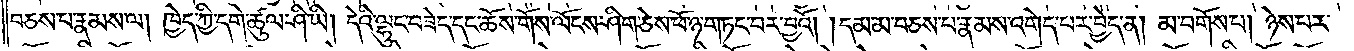བཅས་པ་རྣམས་ལ། ཁྱེད་ཀྱི་དགེ་ཚུལ་ཤི་ཡི། དེའི་ལྷུང་བཟེད་དང་ཆོས་གོས་ལོངས་ཤིག་ཅེས་ཕོ་ཉ་གཏང་བར་བྱའོ། །དམ་མ་བཅས་པ་རྣམས་འགེད་པར་བྱེད་ན། མ་བགོས་པ། ཉེས་པར་
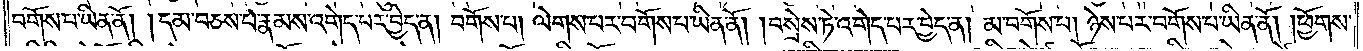བགོས་པ་ཡིན་ནོ། །དམ་བཅས་པ་རྣམས་འགེད་པར་བྱེད་ན། བགོས་པ། ལེགས་པར་བགོས་པ་ཡིན་ནོ། །བསྲེས་ཏེ་འགེད་པར་བྱེད་ན། མ་བགོས་པ། ཉེས་པར་བགོས་པ་ཡིན་ནོ། །ཕྱོགས་
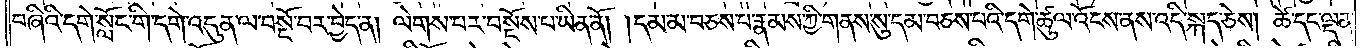བཞིའི་དགེ་སློང་གི་དགེ་འདུན་ལ་བསྔོ་བར་བྱེད་ན། ལེགས་པར་བསྔོས་པ་ཡིན་ནོ། །དམ་མ་བཅས་པ་རྣམས་ཀྱི་གནས་སུ་དམ་བཅས་པའི་དགེ་ཚུལ་འོངས་ནས་འདི་སྐད་ཅེས། ཚེ་དང་ལྡན་
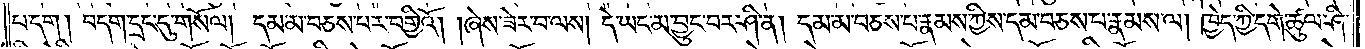པ་དག། བདག་དྲང་དུ་གསོལ། དམ་མ་བཅས་པར་བགྱིའོ། །ཞེས་ཟེར་བ་ལས། དེ་ཡང་མ་བྱུང་བར་ཤི་ན། དམ་མ་བཅས་པ་རྣམས་ཀྱིས་དམ་བཅས་པ་རྣམས་ལ། ཁྱེད་ཀྱི་དགེ་ཚུལ་ཤི་
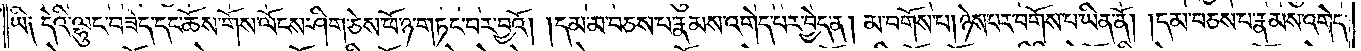ཡི༑ དེའི་ལྷུང་བཟེད་དང་ཆོས་གོས་ལོངས་ཤིག་ཅེས་ཕོ་ཉ་གཏང་བར་བྱའོ། །དམ་མ་བཅས་པ་རྣམས་འགེད་པར་བྱེད་ན། མ་བགོས་པ། ཉེས་པར་བགོས་པ་ཡིན་ནོ། །དམ་བཅས་པ་རྣམས་འགེད་
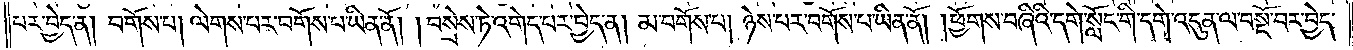པར་བྱེད་ན། བགོས་པ། ལེགས་པར་བགོས་པ་ཡིན་ནོ། །བསྲེས་ཏེ་འགེད་པར་བྱེད་ན། མ་བགོས་པ། ཉེས་པར་བགོས་པ་ཡིན་ནོ། །ཕྱོགས་བཞིའི་དགེ་སློང་གི་དགེ་འདུན་ལ་བསྔོ་བར་བྱེད་
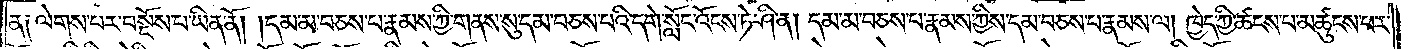ན༑ ལེགས་པར་བསྔོས་པ་ཡིན་ནོ། །དམ་མ་བཅས་པ་རྣམས་ཀྱི་གནས་སུ་དམ་བཅས་པའི་དགེ་སློང་འོངས་ཏེ་ཤི་ན། དམ་མ་བཅས་པ་རྣམས་ཀྱིས་དམ་བཅས་པ་རྣམས་ལ། ཁྱེད་ཀྱི་ཚངས་པ་མཚུངས་པར་
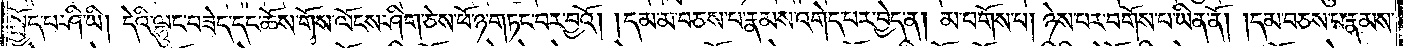སྤྱོད་པ་ཤི་ཡི། དེའི་ལྷུང་བཟེད་དང་ཆོས་གོས་ལོངས་ཤིག་ཅེས་ཕོ་ཉ་གཏང་བར་བྱའོ། །དམ་མ་བཅས་པ་རྣམས་འགེད་པར་བྱེད་ན། མ་བགོས་པ། ཉེས་པར་བགོས་པ་ཡིན་ནོ། །དམ་བཅས་པ་རྣམས་
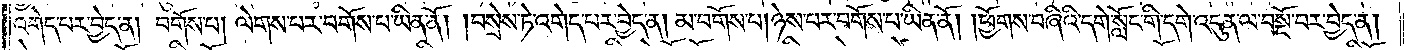འགེད་པར་བྱེད་ན། བགོས་པ། ལེགས་པར་བགོས་པ་ཡིན་ནོ། །བསྲེས་ཏེ་འགེད་པར་བྱེད་ན། མ་བགོས་པ། ཉེས་པར་བགོས་པ་ཡིན་ནོ། །ཕྱོགས་བཞིའི་དགེ་སློང་གི་དགེ་འདུན་ལ་བསྔོ་བར་བྱེད་ན།
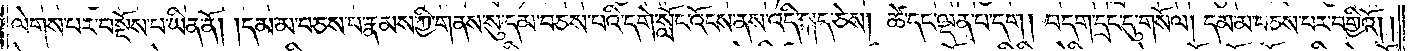ལེགས་པར་བསྔོས་པ་ཡིན་ནོ། །དམ་མ་བཅས་པ་རྣམས་ཀྱི་གནས་སུ་དམ་བཅས་པའི་དགེ་སློང་འོངས་ནས་འདི་སྐད་ཅེས། ཚེ་དང་ལྡན་པ་དག། བདག་དྲང་དུ་གསོལ། དམ་མ་བཅས་པར་བགྱིའོ༎
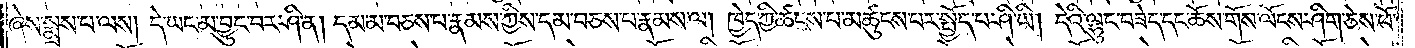ཞེས་སྨྲས་པ་ལས། དེ་ཡང་མ་བྱུང་བར་ཤི་ན། དམ་མ་བཅས་པ་རྣམས་ཀྱིས་དམ་བཅས་པ་རྣམས་ལ། ཁྱེད་ཀྱི་ཚངས་པ་མཚུངས་པར་སྤྱོད་པ་ཤི་ཡི། དེའི་ལྷུང་བཟེད་དང་ཆོས་གོས་ལོངས་ཤིག་ཅེས་ཕོ་
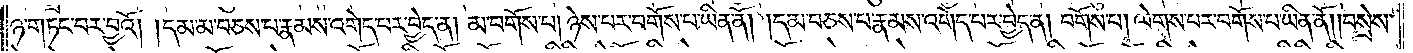ཉ་གཏང་བར་བྱའོ། །དམ་མ་བཅས་པ་རྣམས་འགེད་པར་བྱེད་ན། མ་བགོས་པ། ཉེས་པར་བགོས་པ་ཡིན་ནོ། །དམ་བཅས་པ་རྣམས་འགེད་པར་བྱེད་ན། བགོས་པ། ལེགས་པར་བགོས་པ་ཡིན་ནོ། །བསྲེས་
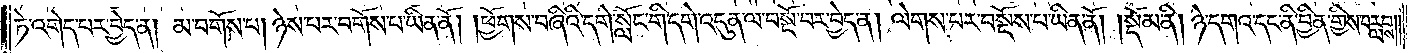ཏེ་འགེད་པར་བྱེད་ན། མ་བགོས་པ། ཉེས་པར་བགོས་པ་ཡིན་ནོ། །ཕྱོགས་བཞིའི་དགེ་སློང་གི་དགེ་འདུན་ལ་བསྔོ་བར་བྱེད་ན། ལེགས་པར་བསྔོས་པ་ཡིན་ནོ།    །སྡོམ་ནི། ཉེ་དགའ་དང་ནི་བྱིན་གྱིས་བརླབས༎
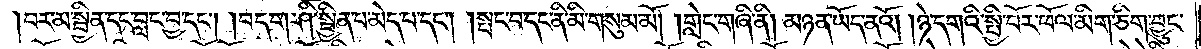བར་མ་སྦྱིན་དང་བླང་བྱ་དང༌། །བདག་ཤི་སྦྱིན་པ་མེད་པ་དང༌། །སྤང་བ་དང་ནི་མི་གསུམ་མོ། །གླེང་གཞི་ནི། མཉན་ཡོད་ནའོ། །ཉེ་དགའི་སྤྱི་བོར་ཕོལ་མིག་ཅིག་བྱུང་
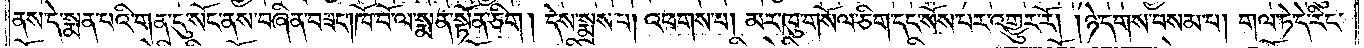ནས་དེ་སྨན་པའི་གན་དུ་སོང་ནས་བཞིན་བཟང༌།ཁོ་བོ་ལ་སྨན་སྟོན་ཅིག། དེས་སྨྲས་པ། འཕགས་པ། མར་ཁུ་གསོལ་ཅིག་དང་སོས་པར་འགྱུར་རོ། །ཉེ་དགས་བསམ་པ། གལ་ཏེ་དེ་རིང་
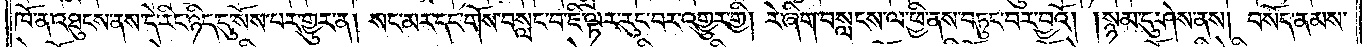ཁོ་ན་འཐུངས་ནས་དེ་རིང་ཉིད་དུ་སོས་པར་གྱུར་ན། སང་མར་དང་གོས་བསླང་བ་ཇི་ལྟར་རུང་བར་འགྱུར་གྱི། རེ་ཞིག་བསླངས་ལ་ཕྱི་ནས་བཏུང་བར་བྱའོ། །སྙམ་དུ་ཤེས་ནས། བསོད་ནམས་
